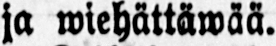ja wiehättäwää.
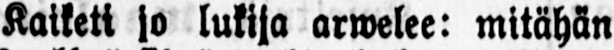Kaiketi jo lukija arwelee: mitähän
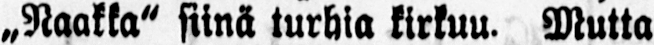„Naakka" siinä turhia kirkuu. Mutta
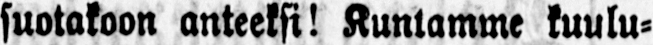suotakoon anteeksi! Kuntamme kuulu-
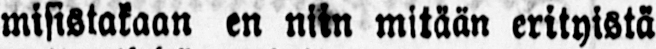misistakaan en niin mitään erityistä
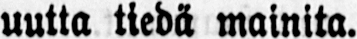uutta tiedä mainita.
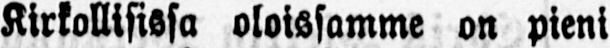Kirkollisissa oloissamme on pieni
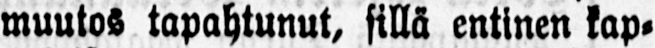muutos tapahtunut, sillä entinen kap-
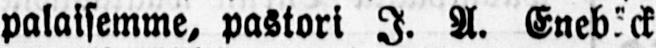palaisemme, pastori I. A. Enebäck
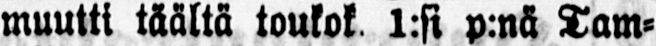muutti täältä toukok. 1:si p:nä Tam-
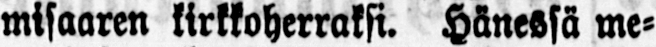misaaren kirkkoherraksi. Hänessä me-
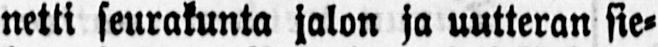netti seurakunta jalon ja uutteran sie-
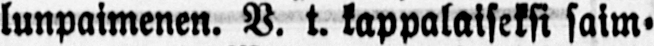lunpaimenen. V. t. kappalaiseksi saim-
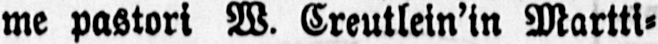me pastori W. Greutlein'in Martti-
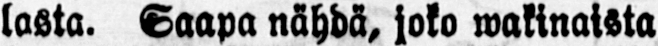lasta. Saapa nähdä, joko wakinaista
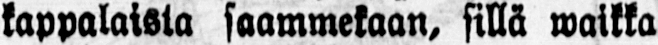kappalaista saammekaan, sillä waikka
